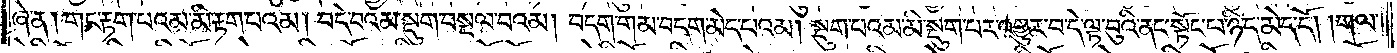ཞེ་ན། གང་རྟག་པའམ་མི་རྟག་པའམ། བདེ་བའམ་སྡུག་བསྔལ་བའམ། བདག་གམ་བདག་མེད་པའམ། སྡུག་པའམ་མི་སྡུག་པར་འགྱུར་བ་དེ་ལྟ་བུའི་ནང་སྟོང་པ་ཉིད་མེད་དོ། །གལ་
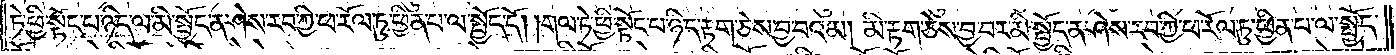ཏེ་ཕྱི་སྟོང་པ་ཉིད་ལ་མི་སྤྱོད་ན་ཤེས་རབ་ཀྱི་ཕ་རོལ་ཏུ་ཕྱིན་པ་ལ་སྤྱོད་དོ། །གལ་ཏེ་ཕྱི་སྟོང་པ་ཉིད་རྟག་ཅེས་བྱ་བའམ། མི་རྟག་ཅེས་བྱ་བར་མི་སྤྱོད་ན་ཤེས་རབ་ཀྱི་ཕ་རོལ་ཏུ་ཕྱིན་པ་ལ་སྤྱོད་
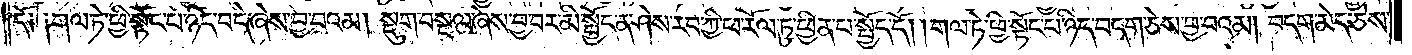དོ༑ ༑གལ་ཏེ་ཕྱི་སྟོང་པ་ཉིད་བདེ་ཞེས་བྱ་བའམ། སྡུག་བསྔལ་ཞེས་བྱ་བར་མི་སྤྱོད་ན་ཤེས་རབ་ཀྱི་ཕ་རོལ་ཏུ་ཕྱིན་པ་ལ་སྤྱོད་དོ། །གལ་ཏེ་ཕྱི་སྟོང་པ་ཉིད་བདག་ཅེས་བྱ་བའམ། བདག་མེད་ཅེས་
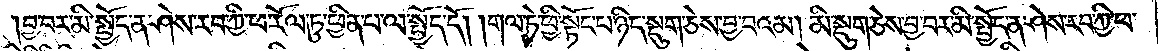བྱ་བར་མི་སྤྱོད་ན་ཤེས་རབ་ཀྱི་ཕ་རོལ་ཏུ་ཕྱིན་པ་ལ་སྤྱོད་དོ། །གལ་ཏེ་ཕྱི་སྟོང་པ་ཉིད་སྡུག་ཅེས་བྱ་བའམ། མི་སྡུག་ཅེས་བྱ་བར་མི་སྤྱོད་ན་ཤེས་རབ་ཀྱི་ཕ་
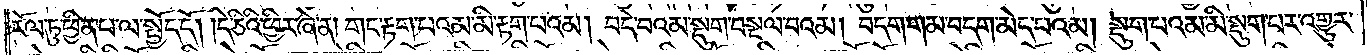རོལ་ཏུ་ཕྱིན་པ་ལ་སྤྱོད་དོ། །དེ་ཅིའི་ཕྱིར་ཞེ་ན། གང་རྟག་པའམ་མི་རྟག་པའམ། བདེ་བའམ་སྡུག་བསྔལ་བའམ། བདག་གམ་བདག་མེད་པའམ། སྡུག་པའམ་མི་སྡུག་པར་འགྱུར་
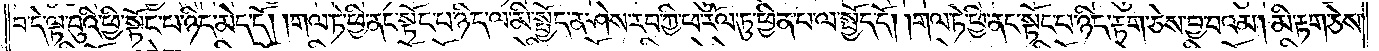བ་དེ་ལྟ་བུའི་ཕྱི་སྟོང་པ་ཉིད་མེད་དོ། །གལ་ཏེ་ཕྱི་ནང་སྟོང་པ་ཉིད་ལ་མི་སྤྱོད་ན་ཤེས་རབ་ཀྱི་ཕ་རོལ་ཏུ་ཕྱིན་པ་ལ་སྤྱོད་དོ། །གལ་ཏེ་ཕྱི་ནང་སྟོང་པ་ཉིད་རྟག་ཅེས་བྱ་བའམ། མི་རྟག་ཅེས་
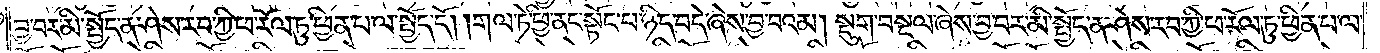བྱ་བར་མི་སྤྱོད་ན་ཤེས་རབ་ཀྱི་ཕ་རོལ་ཏུ་ཕྱིན་པ་ལ་སྤྱོད་དོ། །གལ་ཏེ་ཕྱི་ནང་སྟོང་པ་ཉིད་བདེ་ཞེས་བྱ་བའམ། སྡུག་བསྔལ་ཞེས་བྱ་བར་མི་སྤྱོད་ན་ཤེས་རབ་ཀྱི་ཕ་རོལ་ཏུ་ཕྱིན་པ་ལ་
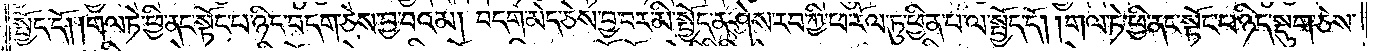སྤྱོད་དོ། །གལ་ཏེ་ཕྱི་ནང་སྟོང་པ་ཉིད་བདག་ཅེས་བྱ་བའམ། བདག་མེད་ཅེས་བྱ་བར་མི་སྤྱོད་ན་ཤེས་རབ་ཀྱི་ཕ་རོལ་ཏུ་ཕྱིན་པ་ལ་སྤྱོད་དོ། །གལ་ཏེ་ཕྱི་ནང་སྟོང་པ་ཉིད་སྡུག་ཅེས་
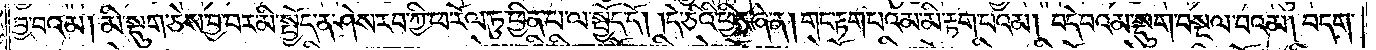བྱ་བའམ། མི་སྡུག་ཅེས་བྱ་བར་མི་སྤྱོད་ན་ཤེས་རབ་ཀྱི་ཕ་རོལ་ཏུ་ཕྱིན་པ་ལ་སྤྱོད་དོ། །དེ་ཅིའི་ཕྱིར་ཞེ་ན། གང་རྟག་པའམ་མི་རྟག་པའམ། བདེ་བའམ་སྡུག་བསྔལ་བའམ། བདག་
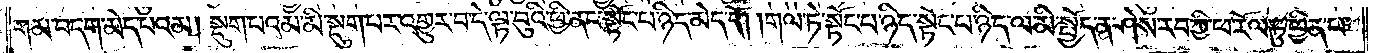གམ་བདག་མེད་པའམ། སྡུག་པའམ་མི་སྡུག་པར་འགྱུར་བ་དེ་ལྟ་བུའི་ཕྱི་ནང་སྟོང་པ་ཉིད་མེད་དོ། །གལ་ཏེ་སྟོང་པ་ཉིད་སྟོང་པ་ཉིད་ལ་མི་སྤྱོད་ན་ཤེས་རབ་ཀྱི་ཕ་རོལ་ཏུ་ཕྱིན་པ་
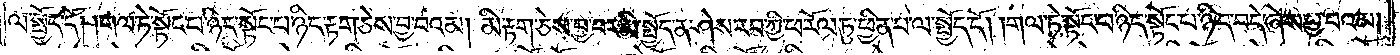ལ་སྤྱོད་དོ། །གལ་ཏེ་སྟོང་པ་ཉིད་སྟོང་པ་ཉིད་རྟག་ཅེས་བྱ་བའམ། མི་རྟག་ཅེས་བྱ་བར་མི་སྤྱོད་ན་ཤེས་རབ་ཀྱི་ཕ་རོལ་ཏུ་ཕྱིན་པ་ལ་སྤྱོད་དོ། །གལ་ཏེ་སྟོང་པ་ཉིད་སྟོང་པ་ཉིད་བདེ་ཞེས་བྱ་བའམ།
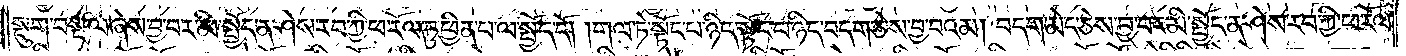སྡུག་བསྔལ་ཞེས་བྱ་བར་མི་སྤྱོད་ན་ཤེས་རབ་ཀྱི་ཕ་རོལ་ཏུ་ཕྱིན་པ་ལ་སྤྱོད་དོ། །གལ་ཏེ་སྟོང་པ་ཉིད་སྟོང་པ་ཉིད་བདག་ཅེས་བྱ་བའམ། བདག་མེད་ཅེས་བྱ་བར་མི་སྤྱོད་ན་ཤེས་རབ་ཀྱི་ཕ་རོལ་
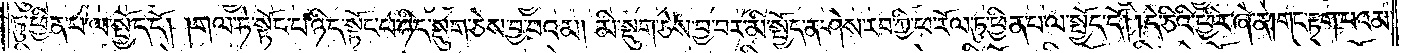ཏུ་ཕྱིན་པ་ལ་སྤྱོད་དོ། །གལ་ཏེ་སྟོང་པ་ཉིད་སྟོང་པ་ཉིད་སྡུག་ཅེས་བྱ་བའམ། མི་སྡུག་ཅེས་བྱ་བར་མི་སྤྱོད་ན་ཤེས་རབ་ཀྱི་ཕ་རོལ་ཏུ་ཕྱིན་པ་ལ་སྤྱོད་དོ། །དེ་ཅིའི་ཕྱིར་ཞེ་ན། གང་རྟག་པའམ་
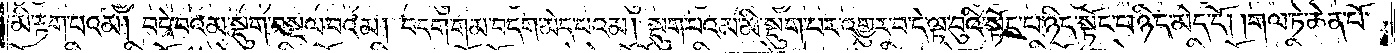མི་རྟག་པའམ། བདེ་བའམ་སྡུག་བསྔལ་བའམ། བདག་གམ་བདག་མེད་བའམ། སྡུག་པའམ་མི་སྡུག་པར་འགྱུར་བ་དེ་ལྟ་བུའི་སྟོང་པ་ཉིད་སྟོང་པ་ཉིད་མེད་དོ། །གལ་ཏེ་ཆེན་པོ་
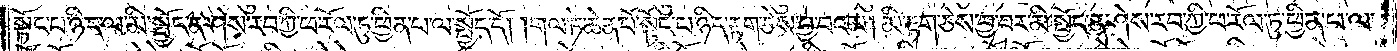སྟོང་པ་ཉིད་ལ་མི་སྤྱོད་ན་ཤེས་རབ་ཀྱི་ཕ་རོལ་ཏུ་ཕྱིན་པ་ལ་སྤྱོད་དོ། །གལ་ཏེ་ཆེན་པོ་སྟོང་པ་ཉིད་རྟག་ཅེས་བྱ་བའམ། མི་རྟག་ཅེས་བྱ་བར་མི་སྤྱོད་ན་ཤེས་རབ་ཀྱི་ཕ་རོལ་ཏུ་ཕྱིན་པ་ལ་
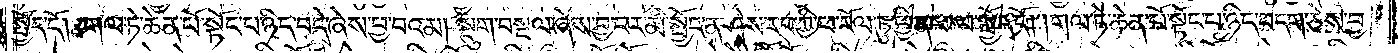སྤྱོད་དོ། །གལ་ཏེ་ཆེན་པོ་སྟོང་པ་ཉིད་བདེ་ཞེས་བྱ་བའམ། སྡུག་བསྔལ་ཞེས་བྱ་བར་མི་སྤྱོད་ན་ཤེས་རབ་ཀྱི་ཕ་རོལ་ཏུ་ཕྱིན་པ་ལ་སྤྱོད་དོ། །གལ་ཏེ་ཆེན་པོ་སྟོང་པ་ཉིད་བདག་ཅེས་བྱ་
